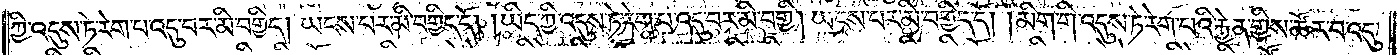ཀྱི་འདུས་ཏེ་རེག་པ་འདུ་བར་མི་བགྱིད། ཡངས་པར་མི་བགྱིད་དོ། །ཡིད་ཀྱི་འདུས་ཏེ་རེག་པ་འདུ་བར་མི་བགྱིད། ཡངས་པར་མི་བགྱིད་དོ། །མིག་གི་འདུས་ཏེ་རེག་པའི་རྐྱེན་གྱིས་ཚོར་བ་འདུ་
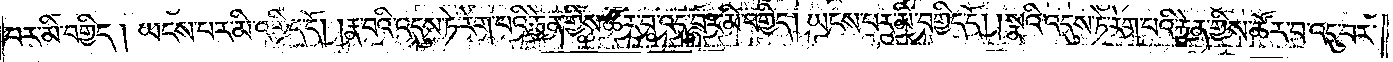བར་མི་བགྱིད། ཡངས་པར་མི་བགྱིད་དོ། །རྣ་བའི་འདུས་ཏེ་རེག་པའི་རྐྱེན་གྱིས་ཚོར་བ་འདུ་བར་མི་བགྱིད། ཡངས་པར་མི་བགྱིད་དོ། །སྣའི་འདུས་ཏེ་རེག་པའི་རྐྱེན་གྱིས་ཚོར་བ་འདུ་བར་
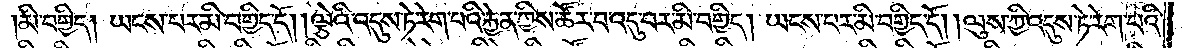མི་བགྱིད། ཡངས་པར་མི་བགྱིད་དོ། །ལྕེའི་འདུས་ཏེ་རེག་པའི་རྐྱེན་གྱིས་ཚོར་བ་འདུ་བར་མི་བགྱིད། ཡངས་པར་མི་བགྱིད་དོ། །ལུས་ཀྱི་འདུས་ཏེ་རེག་པའི་
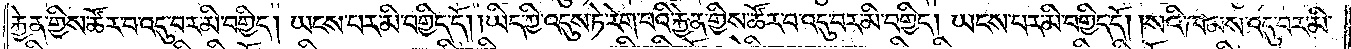རྐྱེན་གྱིས་ཚོར་བ་འདུ་བར་མི་བགྱིད། ཡངས་པར་མི་བགྱིད་དོ། །ཡིད་ཀྱི་འདུས་ཏེ་རེག་པའི་རྐྱེན་གྱིས་ཚོར་བ་འདུ་བར་མི་བགྱིད། ཡངས་པར་མི་བགྱིད་དོ། །སའི་ཁམས་འདུ་བར་མི་
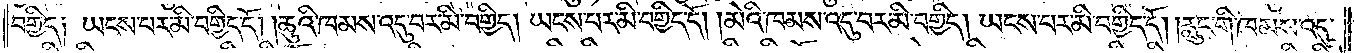བགྱིད༑ ཡངས་པར་མི་བགྱིད་དོ། །ཆུའི་ཁམས་འདུ་བར་མི་བགྱིད། ཡངས་པར་མི་བགྱིད་དོ། །མེའི་ཁམས་འདུ་བར་མི་བགྱིད། ཡངས་པར་མི་བགྱིད་དོ། །རླུང་གི་ཁམས་འདུ་
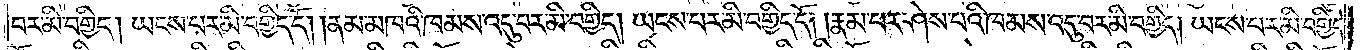བར་མི་བགྱིད། ཡངས་པར་མི་བགྱིད་དོ། །ནམ་མཁའི་ཁམས་འདུ་བར་མི་བགྱིད། ཡངས་པར་མི་བགྱིད་དོ། །རྣམ་པར་ཤེས་པའི་ཁམས་འདུ་བར་མི་བགྱིད། ཡངས་པར་མི་བགྱིད་
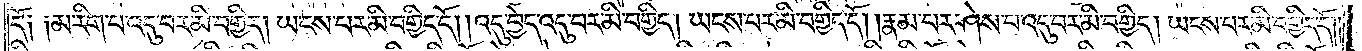དོ༑ ༑མ་རིག་པ་འདུ་བར་མི་བགྱིད། ཡངས་པར་མི་བགྱིད་དོ། །འདུ་བྱེད་འདུ་བར་མི་བགྱིད། ཡངས་པར་མི་བགྱིད་དོ། །རྣམ་པར་ཤེས་པ་འདུ་བར་མི་བགྱིད། ཡངས་པར་མི་བགྱིད་དོ། །
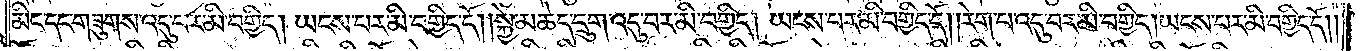མིང་དང་གཟུགས་འདུ་བར་མི་བགྱིད། ཡངས་པར་མི་བགྱིད་དོ། །སྐྱེ་མཆེད་དྲུག་འདུ་བར་མི་བགྱིད། ཡངས་པར་མི་བགྱིད་དོ། །རེག་པ་འདུ་བར་མི་བགྱིད། ཡངས་པར་མི་བགྱིད་དོ། །
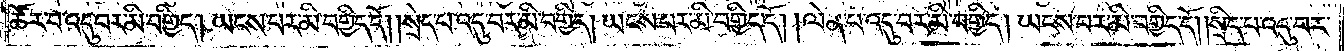ཚོར་བ་འདུ་བར་མི་བགྱིད། ཡངས་པར་མི་བགྱིད་དོ། །སྲེད་པ་འདུ་བར་མི་བགྱིད། ཡངས་པར་མི་བགྱིད་དོ། །ལེན་པ་འདུ་བར་མི་བགྱིད། ཡངས་པར་མི་བགྱིད་དོ། །སྲིད་པ་འདུ་བར་
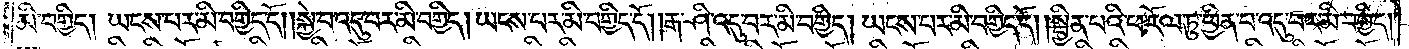མི་བགྱིད། ཡངས་པར་མི་བགྱིད་དོ། །སྐྱེ་བ་འདུ་བར་མི་བགྱིད། ཡངས་པར་མི་བགྱིད་དོ། །རྒ་ཤི་འདུ་བར་མི་བགྱིད། ཡངས་པར་མི་བགྱིད་དོ། །སྦྱིན་པའི་ཕ་རོལ་ཏུ་ཕྱིན་པ་འདུ་བར་མི་བགྱིད།
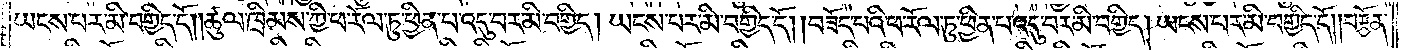ཡངས་པར་མི་བགྱིད་དོ། །ཚུལ་ཁྲིམས་ཀྱི་ཕ་རོལ་ཏུ་ཕྱིན་པ་འདུ་བར་མི་བགྱིད། ཡངས་པར་མི་བགྱིད་དོ། །བཟོད་པའི་ཕ་རོལ་ཏུ་ཕྱིན་པ་འདུ་བར་མི་བགྱིད། ཡངས་པར་མི་བགྱིད་དོ། །བརྩོན་
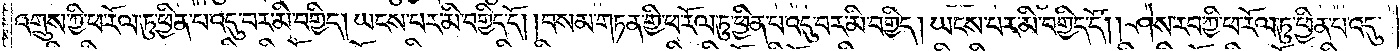འགྲུས་ཀྱི་ཕ་རོལ་ཏུ་ཕྱིན་པ་འདུ་བར་མི་བགྱིད། ཡངས་པར་མི་བགྱིད་དོ། །བསམ་གཏན་གྱི་ཕ་རོལ་ཏུ་ཕྱིན་པ་འདུ་བར་མི་བགྱིད། ཡངས་པར་མི་བགྱིད་དོ། །ཤེས་རབ་ཀྱི་ཕ་རོལ་ཏུ་ཕྱིན་པ་འདུ་
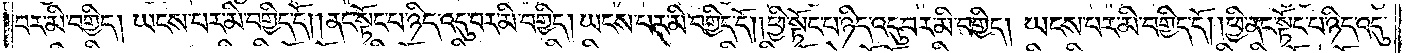བར་མི་བགྱིད། ཡངས་པར་མི་བགྱིད་དོ། །ནང་སྟོང་པ་ཉིད་འདུ་བར་མི་བགྱིད། ཡངས་པར་མི་བགྱིད་དོ། །ཕྱི་སྟོང་པ་ཉིད་འདུ་བར་མི་བགྱིད། ཡངས་པར་མི་བགྱིད་དོ། །ཕྱི་ནང་སྟོང་པ་ཉིད་འདུ་
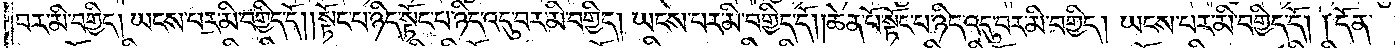བར་མི་བགྱིད། ཡངས་པར་མི་བགྱིད་དོ། །སྟོང་པ་ཉིད་སྟོང་པ་ཉིད་འདུ་བར་མི་བགྱིད། ཡངས་པར་མི་བགྱིད་དོ། །ཆེན་པོ་སྟོང་པ་ཉིད་འདུ་བར་མི་བགྱིད། ཡངས་པར་མི་བགྱིད་དོ། །དོན་
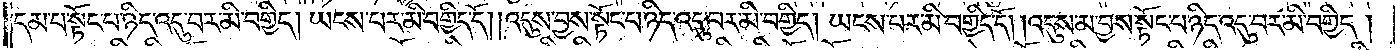དམ་པ་སྟོང་པ་ཉིད་འདུ་བར་མི་བགྱིད། ཡངས་པར་མི་བགྱིད་དོ། །འདུས་བྱས་སྟོང་པ་ཉིད་འདུ་བར་མི་བགྱིད། ཡངས་པར་མི་བགྱིད་དོ། །འདུས་མ་བྱས་སྟོང་པ་ཉིད་འདུ་བར་མི་བགྱིད།
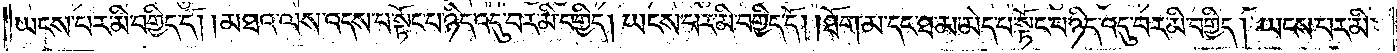ཡངས་པར་མི་བགྱིད་དོ། །མཐའ་ལས་འདས་པ་སྟོང་པ་ཉིད་འདུ་བར་མི་བགྱིད། ཡངས་པར་མི་བགྱིད་དོ། །ཐོག་མ་དང་ཐ་མ་མེད་པ་སྟོང་པ་ཉིད་འདུ་བར་མི་བགྱིད། ཡངས་པར་མི་
